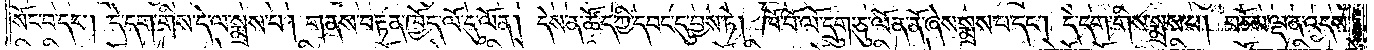སོང་བ་དང༌། དེ་དག་གིས་དེ་ལ་སྨྲས་པ། གནས་བརྟན་ཁྱོད་ལོ་དུ་ལོན། དེས་ན་ཚོད་ཀྱི་དབང་དུ་བྱས་ཏེ། ཁོ་བོ་ལོ་དྲུག་ཅུ་ལོན་ནོ་ཞེས་སྨྲས་པ་དང༌། དེ་དག་གིས་སྨྲས་པ། བཅོམ་ལྡན་འདས་
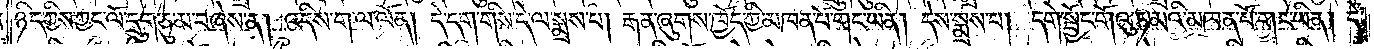ཉིད་ཀྱིས་ཀྱང་ལོ་དྲུག་ཅུ་མ་བཞེས་ན། འདིས་ག་ལ་ལོན། དེ་དག་གིས་དེ་ལ་སྨྲས་པ། རྒན་ཞུགས་ཁྱོད་ཀྱི་མཁན་པོ་གང་ཡིན། དེས་སྨྲས་པ། དགེ་སྦྱོང་གོའུ་ཏ་མའི་མཁན་པོ་གང་ཡིན། དེ་
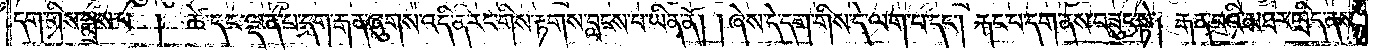དག་གིས་སྨྲས་པ། ཚེ་དང་ལྡན་པ་དག་རྒན་ཞུགས་འདི་ནི་རང་གིས་རྟགས་བླངས་པ་ཡིན་ནོ། །ཞེས་དེ་དག་གིས་དེ་ལག་པ་དང༌། རྐང་པ་དག་ནས་བཟུང་སྟེ། རྒན་པའི་མཐར་ཁྲིད་ནས་
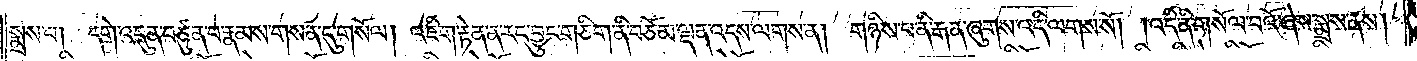སྨྲས་པ། དགེ་འདུན་བཙུན་པ་རྣམས་གསན་དུ་གསོལ། འཇིག་རྟེན་ན་རང་བྱུང་གཅིག་ནི་བཅོམ་ལྡན་འདས་ལགས་ན། གཉིས་པ་ནི་རྒན་ཞུགས་འདི་ལགས་སོ། །འདི་ནི་གསོལ་བའོ་ཞེས་སྨྲས་ནས།
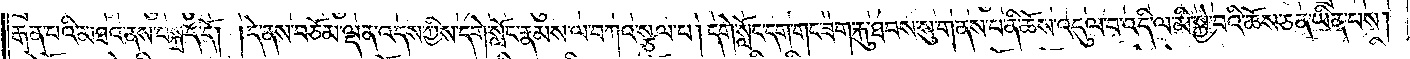རྒན་པའི་མཐའ་ནས་བསྐྲད་དོ། །དེ་ནས་བཅོམ་ལྡན་འདས་ཀྱིས་དགེ་སློང་རྣམས་ལ་བཀའ་སྩལ་པ། དགེ་སློང་དག་གང་ཟག་རྐུ་ཐབས་སུ་གནས་པ་ནི་ཆོས་འདུལ་བ་འདི་ལ་མི་སྐྱེ་བའི་ཆོས་ཅན་ཡིན་པས།
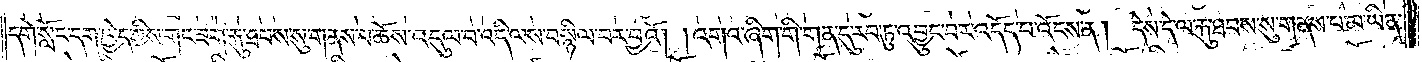དགེ་སློང་དག་ཁྱེད་ཀྱིས་གང་ཟག་རྐུ་ཐབས་སུ་གནས་པ་ཆོས་འདུལ་བ་འདི་ལས་བསྙིལ་བར་བྱའོ། །འགའ་ཞིག་གི་གན་དུ་རབ་ཏུ་འབྱུང་བར་འདོད་པ་འོངས་ན། དེས་དེ་ལ་རྐུ་ཐབས་སུ་གནས་པ་མ་ཡིན་
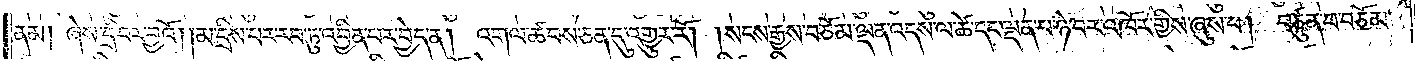ནམ། ཞེས་དྲི་བར་བྱའོ། །མ་དྲིས་པར་རབ་ཏུ་འབྱིན་པར་བྱེད་ན། འགལ་ཚབས་ཅན་དུ་འགྱུར་རོ། །སངས་རྒྱས་བཅོམ་ལྡན་འདས་ལ་ཚེ་དང་ལྡན་པ་ཉེ་བར་འཁོར་གྱིས་ཞུས་པ། བཙུན་པ་བཅོམ་
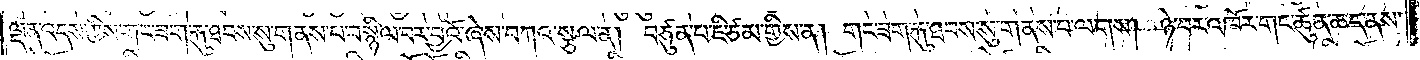ལྡན་འདས་ཀྱིས་གང་ཟག་རྐུ་ཐབས་སུ་གནས་པ་བསྙིལ་བར་བྱའོ་ཞེས་བཀའ་སྩལ་ན། བཙུན་པ་ཇི་ཙམ་གྱིས་ན། གང་ཟག་རྐུ་ཐབས་སུ་གནས་པ་ལགས། ཉེ་བར་འཁོར་གང་ཚུན་ཆད་ནས་
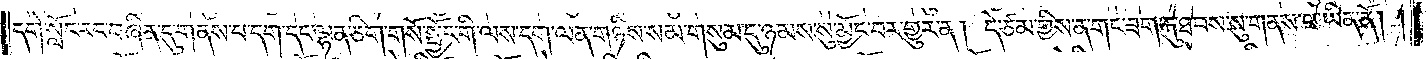དགེ་སློང་རང་བཞིན་དུ་གནས་པ་དག་དང་ལྷན་ཅིག་གསོ་སྦྱོང་གི་ལས་དག་ལན་གཉིས་སམ་གསུམ་དུ་ཉམས་སུ་མྱོང་བར་གྱུར་ན། དེ་ཙམ་གྱིས་ན་གང་ཟག་རྐུ་ཐབས་སུ་གནས་པ་ཡིན་ནོ། །
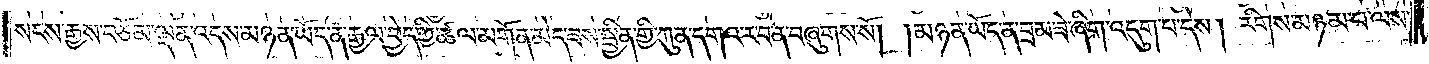སངས་རྒྱས་བཅོམ་ལྡན་འདས་མཉན་ཡོད་ན་རྒྱལ་བྱེད་ཀྱི་ཚལ་མགོན་མེད་ཟས་སྦྱིན་གྱི་ཀུན་དགའ་ར་བ་ན་བཞུགས་སོ། །མཉན་ཡོད་ན་བྲམ་ཟེ་ཞིག་འདུག་པ་དེས། རིགས་མཉམ་པ་ལས་
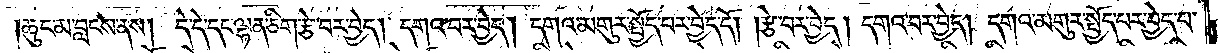ཆུང་མ་བླངས་ནས། དེ་དེ་དང་ལྷན་ཅིག་རྩེ་བར་བྱེད། དགའ་བར་བྱེད། དགའ་མགུར་སྤྱོད་པར་བྱེད་དོ། །རྩེ་བར་བྱེད། དགའ་བར་བྱེད། དགའ་མགུར་སྤྱོད་པར་བྱེད་པ་
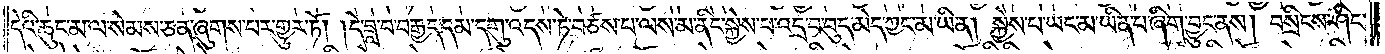དེའི་ཆུང་མ་ལ་སེམས་ཅན་ཞུགས་པར་གྱུར་ཏོ། །དེ་ཟླ་བ་བརྒྱད་དམ་དགུ་འདས་ཏེ་བཙས་པ་ལས་མ་ནིང་སྐྱེས་པ་འདྲ་བ་བུད་མེད་ཀྱང་མ་ཡིན། སྐྱེས་པ་ཡང་མ་ཡིན་པ་ཞིག་བྱུང་ནས། བསྲིངས་ཤིང་
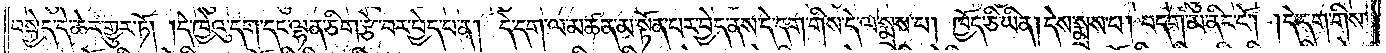བསྐྱེད་དེ་ཆེར་གྱུར་ཏོ། །དེ་ཁྱེའུ་དག་དང་ལྷན་ཅིག་རྩེ་བར་བྱེད་པ་ན། དེ་དག་ལ་མཚན་མ་སྟོན་པར་བྱེད་ནས་དེ་དག་གིས་དེ་ལ་སྨྲས་པ། ཁྱོད་ཅི་ཡིན། དེས་སྨྲས་པ། བདག་མ་ནིང་ངོ༌། །དེ་དག་གིས་
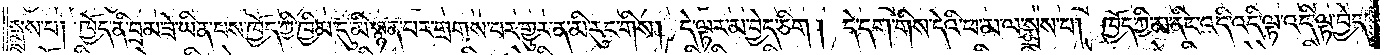སྨྲས་པ། ཁྱོད་ནི་བྲམ་ཟེ་ཡིན་པས་ཁྱོད་ཀྱི་ཁྱིམ་དུ་མི་སྙན་པར་གྲགས་པར་གྱུར་ན་མི་རུང་གིས། དེ་ལྟར་མ་བྱེད་ཅིག། དེ་དག་གིས་དེའི་ཕ་མ་ལ་སྨྲས་པ། ཁྱོད་ཀྱི་མ་ནིང་འདི་འདི་ལྟ་འདི་ལྟ་བྱེད་
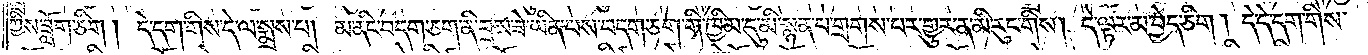ཀྱིས་ཟློག་ཅིག ། དེ་དག་གིས་དེ་ལ་སྨྲས་པ། མ་ནིང་བདག་ཅག་ནི་བྲམ་ཟེ་ཡིན་པས་བདག་ཅག་གི་ཁྱིམ་དུ་མི་སྙན་པ་གྲགས་པར་གྱུར་ན་མི་རུང་གིས། དེ་ལྟར་མ་བྱེད་ཅིག ། དེ་དེ་དག་གིས་
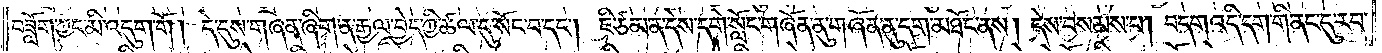བཟློག་ཀྱང་མི་འདུག་གོ ། དེ་དུས་གཞན་ཞིག་ན་རྒྱལ་བྱེད་ཀྱི་ཚལ་དུ་སོང་བ་དང༌། ཇི་ཙམ་ན་དེས་དགེ་སློང་གཞོན་ནུ་གཞོན་ནུ་དག་མཐོང་ནས། དེས་བསམས་པ། བདག་འདི་དག་གི་ནང་དུ་རབ་
